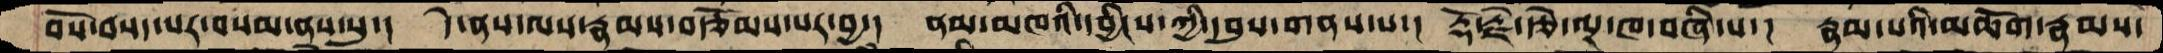བོས་བསད་པར་བསམ་ནས་སུ་།  དེ་ནས་ལས་རྣམས་བརྩོམས་པར་བྱ་།  ནམ་མཁའི་དབྱིངས་ཀྱི་དབུས་གནས་པ་།  རྡོ་རྗེ་རྩེ་ལྔ་ཁ་བཞི་པ།  རྣམ་པའི་མཆོག་རྣམས་
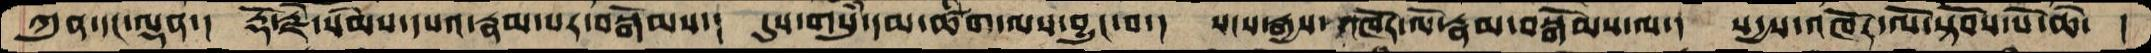ཀུན་དང་ལྡན་།  རྡོ་རྗེ་སེམས་དཔའ་རྣམ་པར་བསྒོམས་།  དུས་གསུཾ་དམ་ཚིག་ལས་བྱུང་བ་།  སངས་རྒྱས་འཁོར་ལོ་རྣམ་བསྒོམས་ལ་།  སདྱས་འཁོར་ལོ་སྟོབས་པོ་ཆེ་  །
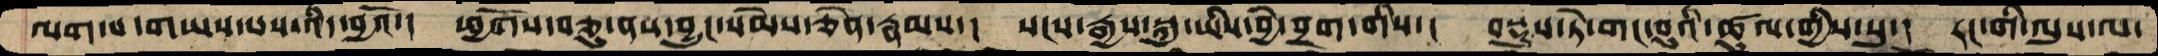ལག་པ་གཡས་པས་འདི་བྱའོ་།  ཕྱོགས་བཅུ་ནས་བྱུང་སེམས་ཅེན་རྣམས་།  སངས་རྒྱས་སྐུ་ཡིས་བྱེ་བྲག་གིས་།  བསྡུས་ཏེ་གང་བུའི་ཚུལ་གྱིས་སུ་།  རང་གི་ལུས་ལ་
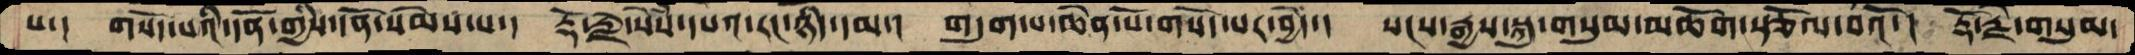པ་།  གསོད་པའི་དོན་གྱིས་དོན་སེམས་པ་།  རྡོ་རྗེ་སེསཾ་དཔའ་རང་ཉིད་དམ་།  གདུག་པ་ཆེན་པོ་གསོད་པར་བྱེད་།  སངས་རྒྱས་སྐུ་གསུམ་མཆོག་སྩོལ་བའོ་།  རྡོ་རྗེ་གསུམ་
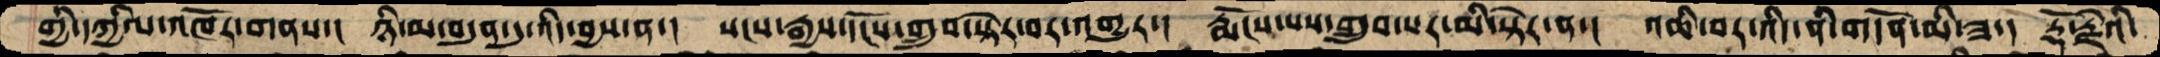གྱི་དཀྱིལ་འཁོར་གནས་།  ཉི་མ་བདུན་དུ་འདི་བྱས་ན་།  སངས་རྒྱས་དངོས་གྲུབ་སྟེར་བར་འགྱུར་།  རྨོངས་པས་གྲུབ་པར་མི་སྟེར་ན་།  འཆི་བར་འདི་ནི་གདོན་མི་ཟ་།  རྡོ་རྗེའི་
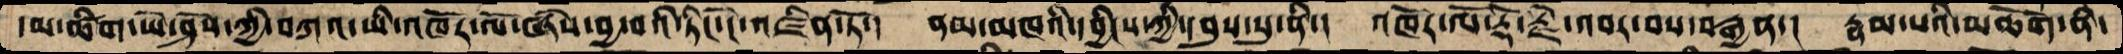དམ་ཚིག་ཡེ་ཤེས་ཀྱི་བཀའ་ཡི་འཁོར་ལོ་ཞེས་བྱ་བའི་ཏིང་ངེ་འཛིན་ཏོ་།  ནམ་མཁའི་དབྱིངས་ཀྱི་དབུས་སུ་ནི་།  འཁོར་ལོ་རྡོ་རྗེ་འབར་བས་བརྒྱན་།  རྣམ་པའི་མཆོག་ནི་
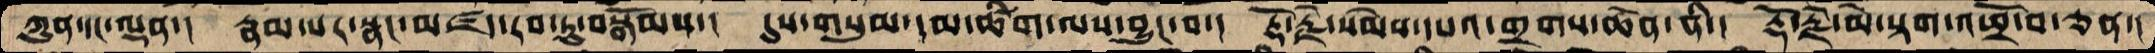ཀུན་དང་ལྡན་།  རྣམ་པར་སྣང་མཛད་རབ་ཏུ་བསྒོམས་།  དུས་གསུམ་དམ་ཚིག་ལས་བྱུང་བ་།  རྡོ་རྗེ་སེམས་དཔའ་གྲགས་ཆེན་ནི་།  རྡོ་རྗེ་མེ་སྟག་འཕྲོ་བ་ཅན་།
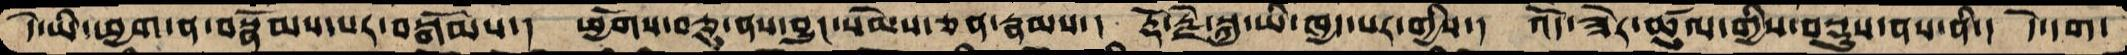དེ་ཡི་ཕྱག་ན་བསྣོམས་པར་བསྒོམས་།  ཕྱོགས་བཅུ་ནས་བྱུང་སེམས་ཅན་རྣམས་།  རྡོ་རྗེ་སྐུ་ཡི་ཁྱད་པར་གྱིས་།  འོད་ཟེར་ཚུལ་གྱིས་བསྡུས་ནས་ནི་།  དེ་དག་
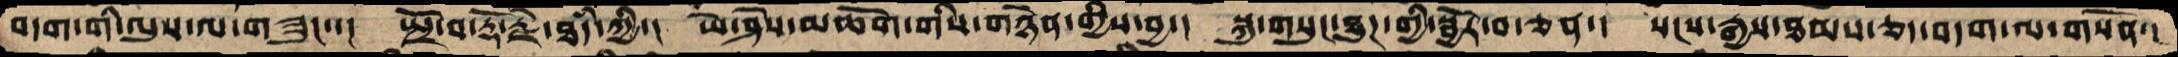བདག་གི་ལུས་ལ་གཟུང་་།  སྤྲོ་བ་རྡོ་རྗེ་ཐཾད་ཀྱི་།  ཡེ་ཤེས་མཆོག་གིས་གཉེན་གྱིས་བྱ་།  སྐུ་གསུང་ཐུཌ་གྱི་སྦྱོར་བ་ཅན་།  སངས་རྒྱས་ཐམས་ཅད་བདག་ལ་གསོན་།
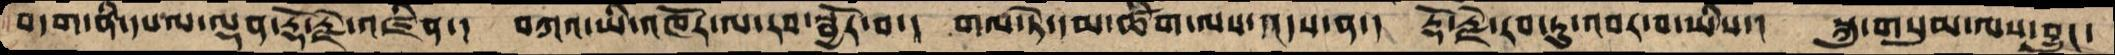བདག་ནི་དཔལ་ལྡན་རྡོ་རྗེ་འཛིན་།  བཀའ་ཡི་འཁོར་ལོ་རབ་སྦྱོར་བ་།  གལ་ཏེ་དམ་ཚིག་ལས་འདས་ན་།  རྡོ་རྗེ་རབ་ཏུ་འབར་བ་ཡིས་།  སྐུ་གསུམ་ལས་བྱུང་
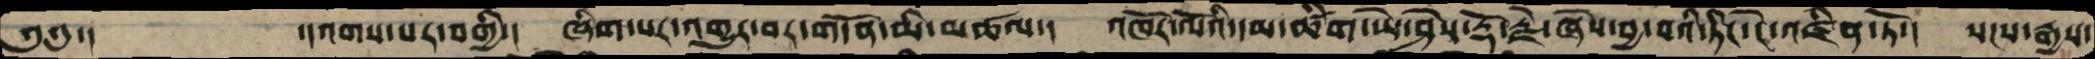༄༅་།       ་།འགས་པར་བགྱི་།  ཞིག་པར་འགྱུར་བར་གདོན་མི་མཚལ་།  འཁོར་ལོའི་དམ་ཚིག་ཡེ་ཤེས་རྡོ་རྗེ་ཞེས་བྱ་བའི་ཏིང་ངེ་འཛིན་ཏོ་།  སངས་རྒྱས་
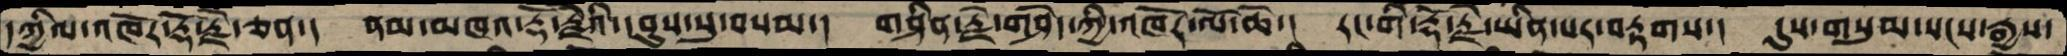དཀྱིལ་འཁོར་རྡོ་རྗེ་ཅན་།  ནམ་མཁའ་རྡོ་རྗེའི་དབུས་སུ་བསམ་།  གཤིན་རྗེ་གཤེད་ཀྱི་འཁོར་ལོ་ཆེ་།  རང་གི་རྡོ་རྗེ་ཡིན་པར་བརྟགས་།  དུས་གསུམ་སངས་རྒྱས་
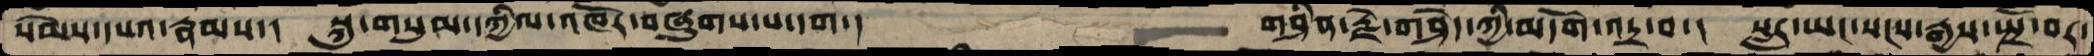སེམས་དཔའ་རྣམས་།  སྐུ་གསུམ་དཀྱིལ་འཁོར་བཞུགས་པ་དག་།           གཤིན་རྗེ་གཤེད་ཀྱི་མདོག་འདྲ་བ་།  སླར་ཡང་སངས་རྒྱས་སྤྲོ་བར་
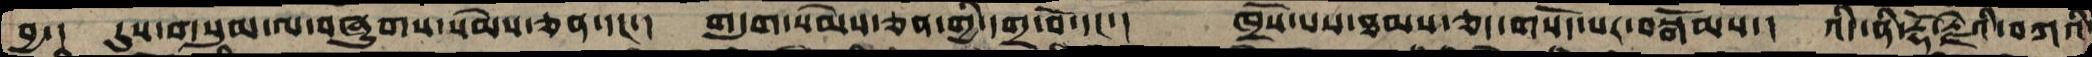བྱ་།  དུས་གསུམ་ལ་བཞུགས་སེམས་ཅན་དང་།  གདུག་སེམས་ཅན་གྱི་དགྲ་བོ་དང་།   ཁྲོས་པས་ཐམས་ཅད་གསོད་པར་བསྒོམས་།  འདི་ནི་རྡོ་རྗེའི་བཀའི་
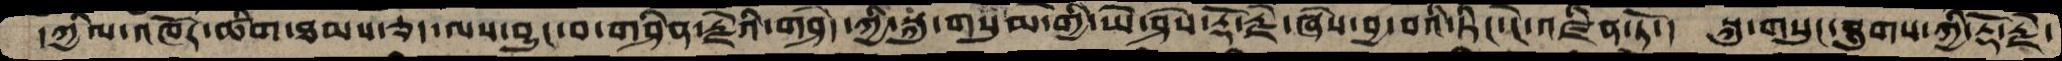དཀྱིལ་འཁོར་ཚིག་ཐམས་ཅད་ལས་བྱུང་བ་གཤིན་རྗེའི་གཤེད་ཀྱི་སྐུ་གསུམ་གྱི་ཡེ་ཤེས་རྡོ་རྗེ་ཞེས་བྱ་བའི་ཏིང་ངེ་འཛིན་ཏོ་།  སྐུ་གསུང་ཐུགས་ཀྱི་རྡོ་རྗེ་
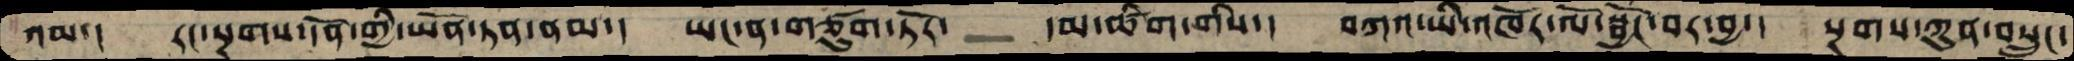འམ་།  རང་སྔགས་དོན་གྱི་ཡོན་ཏན་ནམ་།  ཡང་ན་གཙུག་ཏོར་      དམ་ཚིག་གིས་།   བཀའ་ཡི་འཁོར་ལོ་སྦྱོང་བར་བྱ་།  སྔགས་ཀུན་བསྲུང་
